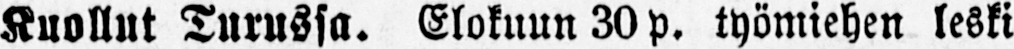Kuollut Turussa. Elokuun 30 p. työmiehen leski
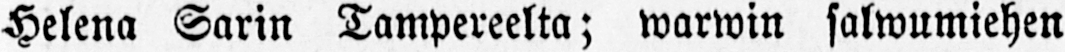Helena Sarin Tampereelta; warwin salwumiehen
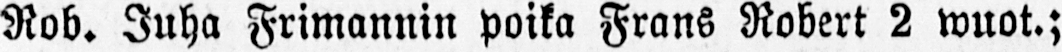Rob. Juha Frimannin poika Frans Robert 2 wuot.;
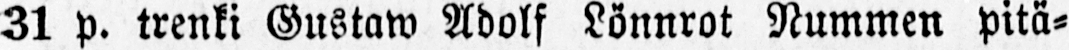31 p. trenki Gustaw Adolf Lönnrot Nummen pitä-
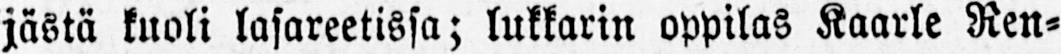jästä kuoli lasareetissa; lukkarin oppilas Kaarle Ren-
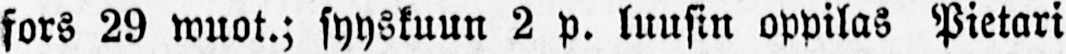fors 29 wuot.; syyskuun 2 p. luusin oppilas Pietari
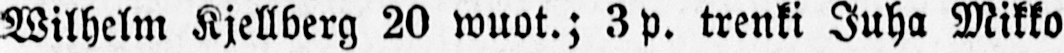Wilhelm Kjellberg 20 wuot.; 3 p. trenki Juha Mikko
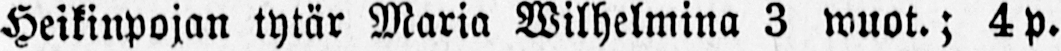Heikinpojan tytär Maria Wilhelmina 3 wuot.; 4p.
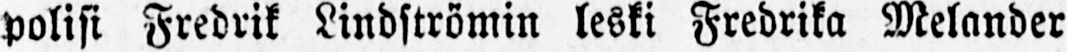polisi Fredrik Lindströmin leski Fredrika Melander
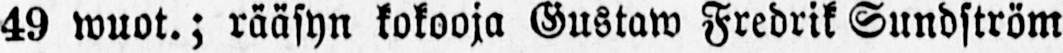49 wuot.; rääsyn kokooja Gustaw Fredrik Sundström
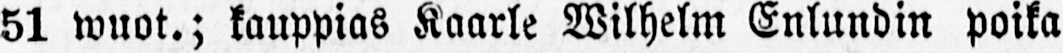51 wuot.; kauppias Kaarle Wilhelm Enlundin poika
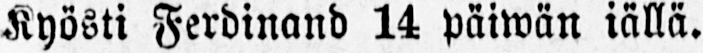Kyösti Ferdinand 14 päiwän iällä.
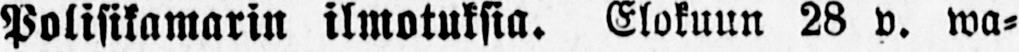Polisikamarin ilmotuksia. Elokuun 28 p. wa-
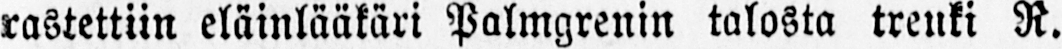rastettiin eläinlääkäri Palmgrenin talosta trenki R.
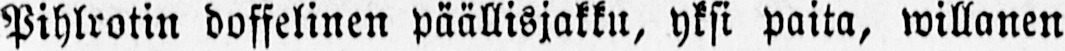Pihlrotin doffelinen päällisjakku, yksi paita, willanen
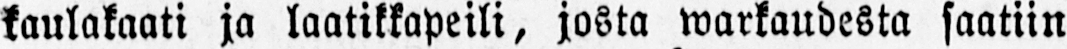kaulakaati ja laatikkapeili, josta warkaudesta saatiin
